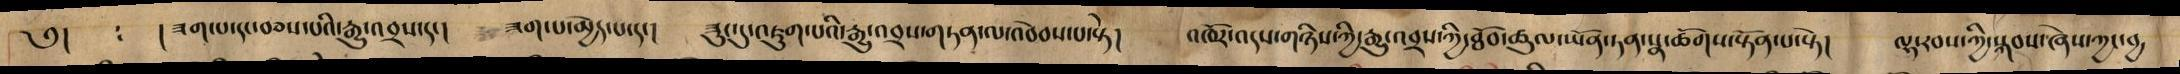༅། : ། ཟག་པ་དང་བཅས་པའི་རྒྱུ་འབྲས་དང། ཟག་པ་མྱེད་པ་དང། ཟུང་དུ་འཇུག་པའི་རྒྱུ་འབྲས་གཏན་ལ་འབེབས་པ་སྟེ། འཁོར་འདས་གཉིས་ཀྱི་རྒྱུ་འབྲས་ཀྱི་ཐོབ་ཚཱུལ་ཡོན་ཏན་སྣ་ཚོགས་སྟོན་པ་སྟེ། ལྷ་རབས་ཀྱི་སྐབས་ཞེས་ཀྱང་བྱ
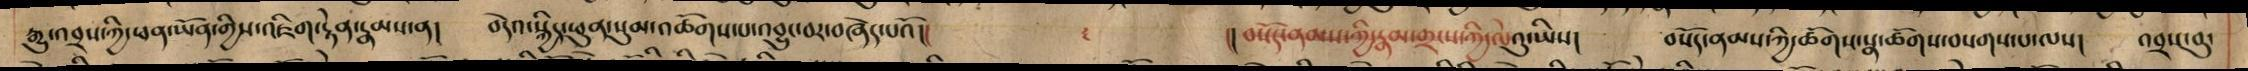རྒྱུ་འབྲས་ཀྱི་ཕན་ཡོན་གྱིས་འཇིག་རྟེན་རྣམས་ན། བདེའ་སྐྱིད་ཕུན་སུམ་འཚོགས་པ་འབྱུང་བར་བཞེད་པའོ།། །།བསོད་ནམས་ཀྱི་རྣམ་གྲངས་ཀྱི་ལེའུ་ཡིས། བསོད་ནམས་ཀྱི་ཚོགས་སྣ་ཚོགས་བསགས་པ་ལས། འབྲས་བུ་
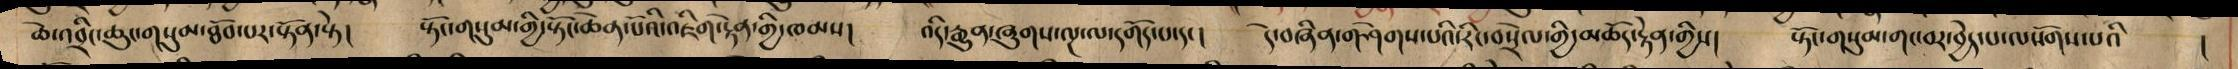ཆེ་འབྲིང་ཆུང་གསུམ་ཐོབ་པར་སྟོན་སྟེ། སྟོང་གསུམ་གྱི་སྟོང་ཆེན་པོའི་འཇིག་རྟེན་གྱི་ཁམས། འདི་རྒྱུན་ཞིགས་ལྔ་ལ་དགོད་པ་དང། དེ་བཞཱིན་གཤེགས་པའི་རིང་བསྲེལ་གྱི་མཆོད་རྟེན་གྱིས། སྟོང་གསུམ་གང་བར་བྱེད་པ་ལསོགས་པའི །
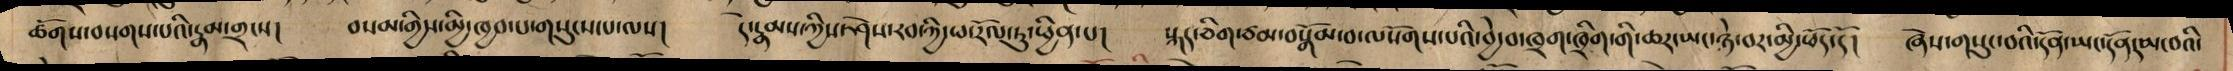ཚོགས་བསགས་པའི་རྣམ་གྲངས། བསམ་གྱིས་མྱི་ཁྱབ་པ་གསུངས་པ་ལས། དེ་རྣམས་ཀྱིས་ཤེས་རབ་ཀྱི་ཕ་རོལ་ཏུ་ཕྱིན་པ། སྐད་ཅིག་ཙམ་བསྒོམ་བ་ལ་སོགས་པའི་བྱེ་བ་ཁྲག་ཁྲིག་གི་ཆར་ཡང་ཉེ་བར་མྱི་ཕོད་དོ། ཞེས་གསུང་བའི་དོན་ཡང་དོན་དམ་བའི་
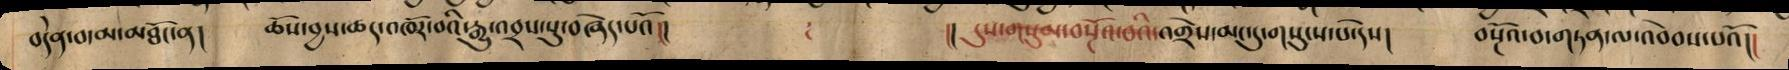བདེན་བ་མ་མཐོང་ན། ཆོས་བྱས་ཚད་འཁོར་བའི་རྒྱུ་འབྲས་སུ་བཞེད་པའོ།། །། དུས་གསུམ་བསྔོའ་བའི་འགྲེས་མང་དུ་གསུངས་པ་དེས། བསྔོའ་བ་གཏན་ལ་འབེབས་པའོ།།
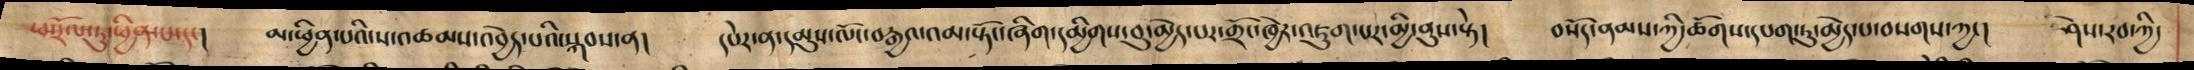ཕ་རོལ་ཏུ་ཕྱིན་པ་དང། མ་ཕྱིན་པའི་ས་འཚམས་འབྱེད་པའི་སྐབས་ན། དཔེར་ན་དམུས་ལོང་བརྒྱའ་འམ་སྟོང་ཞིག་དམྱིགས་བུ་མྱེད་པར་གྲོང་ཁྱེར་འཇུག་པར་མྱི་ནུས་སྟེ། བསོད་ནམས་ཀྱི་ཚོགས་དཔག་ཏུ་མྱེད་པ་བསགས་ཀྱང། ཤེས་རབ་ཀྱི་
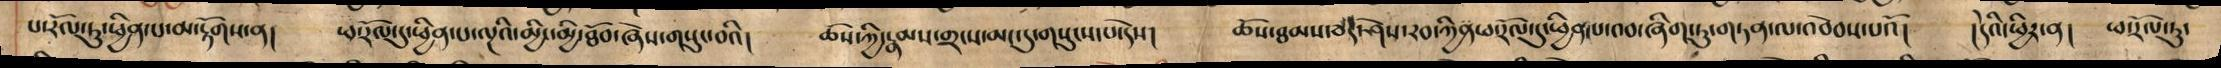པ་རོལ་ཏུ་ཕྱིན་པ་མ་རྟོགས་ན། ཕ་རོལ་དུ་ཕྱིན་པ་ལྔའི་མྱིང་མྱི་ཐོབ་ཞེས་གསུང་བའི། ཆོས་ཀྱི་རྣམས་གྲངས་མང་དུ་གསུངས་པ་དེས། ཆོས་ཐམས་ཅད་ཤེས་རབ་ཀྱིན་ཕ་རོལ་དུ་ཕྱིན་པ་འབ་ཞིག་ཏུ་གཏན་ལ་འབེབས་པའོ། །དེའི་ཕྱིར་ན། ཕ་རོལ་ཏུ་
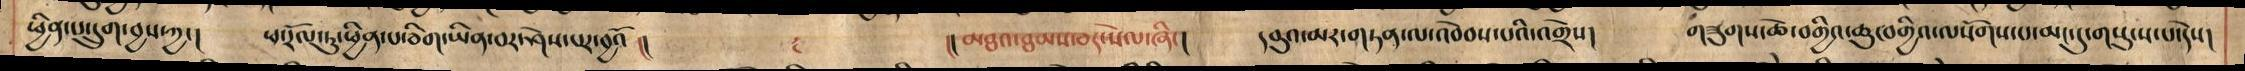ཕྱིན་པ་དྲུག་བྱས་ཀྱང། ཕ་རོལ་ཏུ་ཕྱིན་པ་ཅིག་ཡིན་བར་ཤེས་པར་བྱའོ །། །།མཐའ་ཐམས་ཅད་སེལ་ཞིང། དབུའ་མར་གཏན་ལ་འབེབས་པའི་འགྲེས། གཟུགས་ཆེ་བགྱིའ་ཆུང་བགྱིའ་ལསོགས་པ་མང་དུ་གསུངས་པ་དེས།
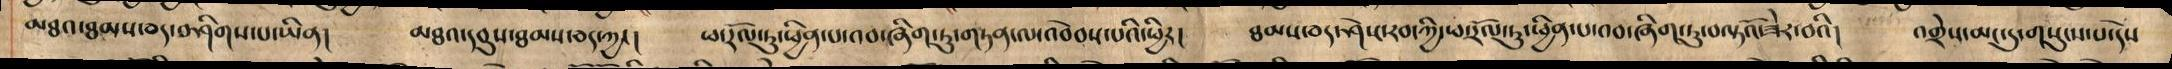མཐའ་ཐམས་ཅད་བཤིགས་པ་ཡིན། མཐའ་དབུས་ཐམས་ཅད་ཀྱང། ཕ་རོལ་ཏུ་ཕྱིན་པ་འབ་ཞིག་ཏུ་གཏན་ལ་འབེབས་པའི་ཕྱིར། ཐམས་ཅད་ཤེས་རབ་ཀྱི་ཕ་རོལ་ཏུ་ཕྱིན་པ་འབ་ཞིག་ཏུ་བལྟའོ་ཟེར་བའི། འགྲེས་མང་དུ་གསུངས་པ་དེས
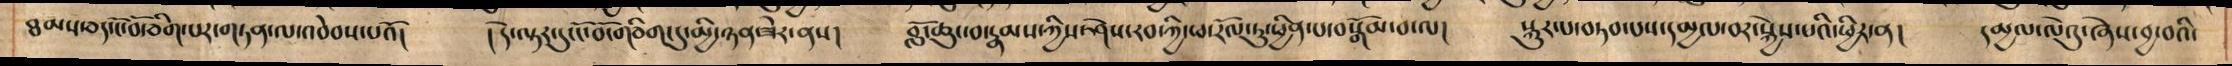ཐམས་ཅད་ངོ་བོ་ཅིག་པར་གཏན་ལ་འབེབས་པའོ། །དེ་ལྟར་དུ་ངོ་བོ་གཅིག་དུ་མྱི་ཉན་ཟེར་ནས། བློ་ཆུང་བ་རྣམས་ཀྱིས་ཤེས་རབ་ཀྱི་ཕ་རོལ་ཏུ་ཕྱིན་པ་བསྒོམ་བ་ལ། སྐུར་པ་བཏབ་པས་དནྱལ་བར་སྐྱེས་པའི་ཕྱིར་ན། དམྱལ་ལེའུ་ཞེས་བྱ་བའི་
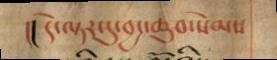།། དེ་ལྟར་དུ་བྱང་ཆུབ་སེམས
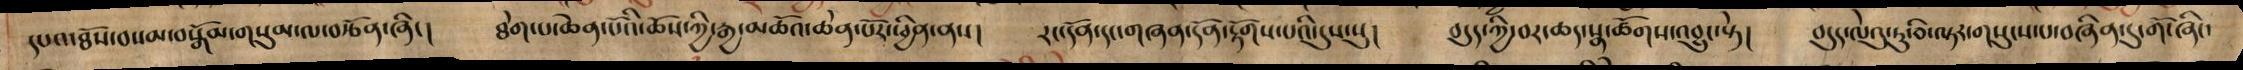དཔའ་ཐོས་བསམ་བསྒོམ་གསུམ་ལ་བརྩོན་ཞིང། ཐེག་པ་ཆེན་པོའི་ཆོས་ཀྱི་རྒྱ་མཚོའ་ཆེན་པོར་ཕྱིན་ནས། རང་དོན་དང་གཞན་དོན་རྟོགས་པའི་དུས་སུ། བདུད་ཀྱི་བར་ཆད་སྣ་ཚོགས་འབྱུང་སྟེ། བདུས་ལེའུ་ཏུ་བི་ལྟར་གསུངས་པ་བཞིན་དུ་གོ་ཞིང་
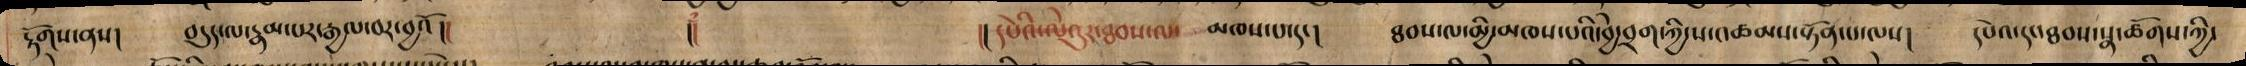རྟོགས་ནས། བདུད་ལ་རྣམ་པར་རྒྱལ་བར་བྱའོ།། །། །།དཔེའི་ལེའུར་ཐབས་ལ་ མཁས་པ་དང། ཐབས་ལ་མྱི་མཁས་པའི་བྱེ་བྲག་ཀྱི་ས་འཚམས་སྟོན་པ་ལས། དཔེའ་དང་ཐབས་སྣ་ཚོགས་ཀྱི་
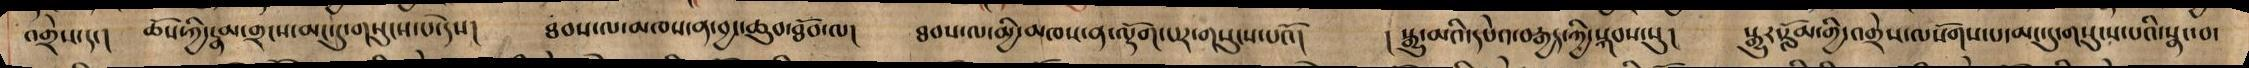འགྲེས་དང། ཆོས་ཀྱི་རྣམ་གྲངས་མང་དུ་གསུངས་པ་དེས། ཐབས་ལ་མཁས་ན་བྱང་ཆུབ་ཐོབ་ལ། ཐབས་ལ་མྱི་མཁས་ན་ལྡོག་པར་གསུངས་པའོ། ། སྒྱུ་མའི་དཔེའ་བརྒྱད་ཀྱི་སྐབས་སུ། སྒྱུར་རློམ་གྱི་འགྲེས་ལསོགས་པ་མང་དུ་གསུངས་པའི་སྣང་བ་
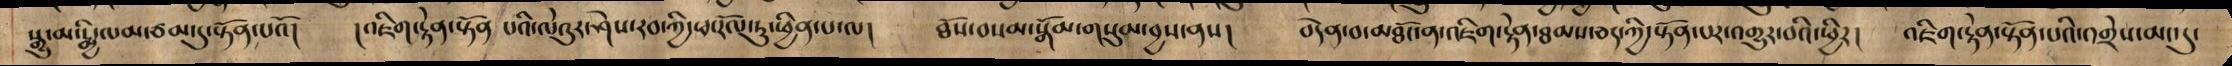སྒྱུ་མ་རྨྱི་ལམ་ཙམ་དུ་སྟོན་པའོ། །འཇིག་རྟེན་སྟོན པའི་ལེའུར་ཤེས་རབ་ཀྱི་ཕ་རོལ་ཏུ་ཕྱིན་པ་ལ། ཐོས་བསམ་སྒོམ་གསུམ་བྱས་ནས། བདེན་བ་མཐོང་ན་འཇིག་རྟེན་ཐམས་ཅད་ཀྱི་སྟོན་པར་འགྱུར་བའི་ཕྱིར། འཇིག་རྟེན་སྟོན་པའི་འགྲེས་མང་དུ་
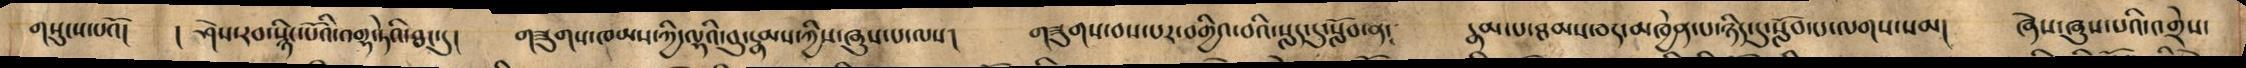གསུངས་པའོ། ། ཤེས་རབ་སྙིང་པོའི་འགྷ་ཏེའི་ཐང་དུ། གཟུགས་ཁམས་ཀྱི་ལྷའི་བུ་རྣམས་ཀྱིས་ཞུས་པ་ལས། གཟུགས་བས་པར་བགྱིའ་བའི་སླད་དུ་སློབ་ན། རྣམ་པ་ཐམས་ཅད་མཁྱེན་པ་ཉིད་དུ་སློབ་པ་ལགས་སམ། ཞེས་ཞུས་པའི་འགྲེས་
